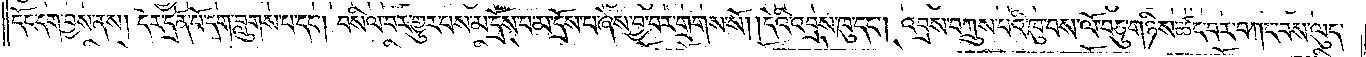དོང་དག་བྱས་ནས། དེར་དྲན་པོ་དག་བླུགས་པ་དང༌། བསིལ་བར་གྱུར་པས་མ་དྲོས་པ་མ་དྲོས་པ་ཞེས་བྱ་བར་གྲགས་སོ། །དེའི་འབྲས་ཁུ་དང༌། འབྲས་བཀྲུས་པའི་ཁུ་བ་ལོ་བཅུ་གཉིས་ཚང་བར་བཀང་བས་ལུད་
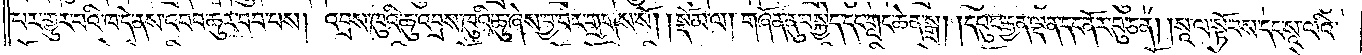པར་གྱུར་པའི་ཁ་དེ་ནས་འབབ་ཆུར་བབ་པས། འབྲས་ཁུའི་ཆུ་འབྲས་ཁུའི་ཆུ་ཞེས་བྱ་བར་གྲགས་སོ།    །སྡོམ་ལ། གཞོན་ནུ་བསྐྱེད་དང་གླང་ཆེན་སྒྲ། དཔུང་རྒྱལ་ལྡན་དང་ནོར་བུ་ཅན། སཱ་ལ་སྟོབས་དང་སཱ་ལའི་
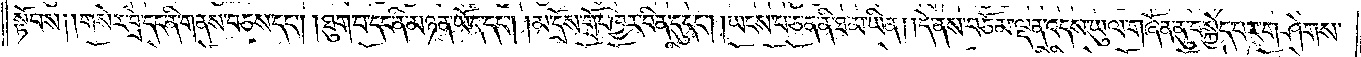སྟོབས། །གསེར་བྲེ་དང་ནི་གནས་བཅས་དང༌། །ཐུག་པ་དང་ནི་མཉན་ཡོད་དང༌། །མ་དྲོས་གྲོང་ཁྱེར་བིན་དུ་དང༌། །ཡངས་པ་ཅན་ནི་ཐ་མ་ཡིན། །དེ་ནས་བཅོམ་ལྡན་འདས་ཡུལ་གཞོན་ནུ་བསྐྱེད་པར་གཤེགས་
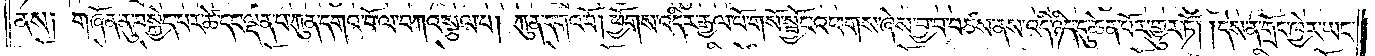ནས། གཞོན་ནུ་བསྐྱེད་པར་ཚེ་དང་ལྡན་པ་ཀུན་དགའ་བོ་ལ་བཀའ་སྩལ་པ། ཀུན་དགའ་བོ། །ཕྱོགས་འདིར་རྒྱལ་པོ་གསོ་སྦྱོང་འཕགས་ཞེས་བྱ་བ་བཙས་ནས་འདི་ཉིད་དུ་ཆེན་པོར་གྱུར་ཏོ། །དེས་ན་གྲོང་ཁྱེར་ཡང་
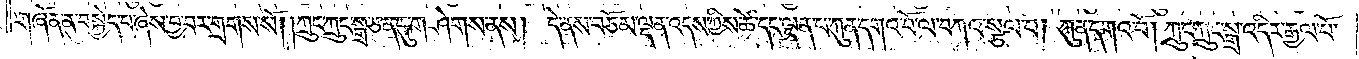གཞོན་ནུ་བསྐྱེད་པ་ཞེས་བྱ་བར་གྲགས་སོ། །ཀྲུང་ཀྲུང་སྒྲ་ཅན་དུ་གཤེགས་ནས། དེ་ནས་བཅོམ་ལྡན་འདས་ཀྱིས་ཚེ་དང་ལྡན་པ་ཀུན་དགའ་བོ་ལ་བཀའ་སྩལ་པ། ཀུན་དགའ་བོ། ཀྲུང་ཀྲུང་སྒྲ་འདིར་རྒྱལ་པོ་
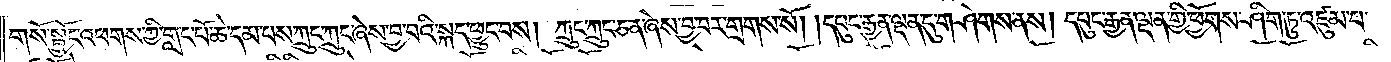གསོ་སྦྱོང་འཕགས་ཀྱི་གླང་པོ་ཆེ་དམ་པས་ཀྲུང་ཀྲུང་ཞེས་བྱ་བའི་སྐད་ཕྱུང་བས། ཀྲུང་ཀྲུང་ཅན་ཞེས་བྱ་བར་གྲགས་སོ། །དཔུང་རྒྱན་ལྡན་དུ་གཤེགས་ནས། དཔུང་རྒྱན་ལྡན་གྱི་ཕྱོགས་ཤིག་ཏུ་འཛུམ་པ་
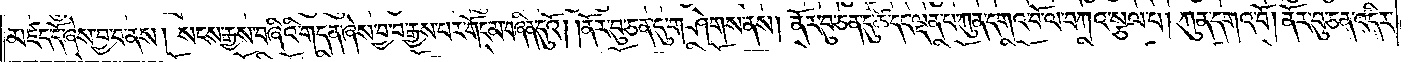མཛད་དོ་ཞེས་བྱ་བ་ནས། སངས་རྒྱས་བཞིའི་གདན་ཞེས་བྱ་བ་རྒྱས་པར་གོང་མ་བཞིན་དུའོ། །ནོར་བུ་ཅན་དུ་གཤེགས་ནས། ནོར་བུ་ཅན་དུ་ཚེ་དང་ལྡན་པ་ཀུན་དགའ་བོ་ལ་བཀའ་སྩལ་པ། ཀུན་དགའ་བོ། ནོར་བུ་ཅན་འདིར་
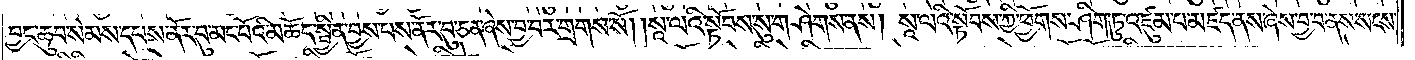བྱང་ཆུབ་སེམས་དཔས་ནོར་བུ་མང་པོའི་མཆོད་སྦྱིན་བྱས་པས་ནོར་བུ་ཅན་ཞེས་བྱ་བར་གྲགས་སོ། །སཱ་ལའི་སྟོབས་སུ་གཤེགས་ནས། སཱ་ལའི་སྟོབས་ཀྱི་ཕྱོགས་ཤིན་ཏུ་འཛུམ་པ་མཛད་ནས་ཞེས་བྱ་བ་ནས་སངས་
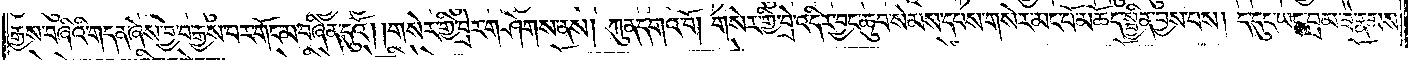རྒྱས་བཞིའི་གདན་ཞེས་བྱ་བ་རྒྱས་པར་གོང་མ་བཞིན་དུའོ། །གསེར་གྱི་བྲེར་གཤེགས་ནས། ཀུན་དགའ་བོ། གསེར་གྱི་བྲེ་འདིར་བྱང་ཆུབ་སེམས་དཔས་གསེར་མང་པོ་མཆོད་སྦྱིན་བྱས་པས། ད་དུང་ཡང་བྲམ་ཟེ་རྣམས་
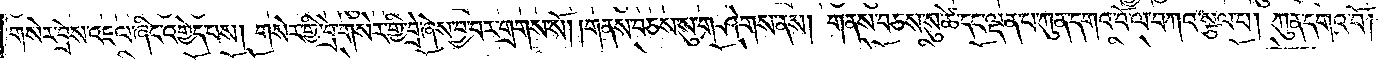གསེར་བྲེས་འཇལ་ཞིང་འགྱེད་པས། གསེར་གྱི་བྲེ་གསེར་གྱི་བྲེ་ཞེས་བྱ་བར་གྲགས་སོ། །གནས་བཅས་སུ་གཤེགས་ནས། གནས་བཅས་སུ་ཚེ་དང་ལྡན་པ་ཀུན་དགའ་བོ་ལ་བཀའ་སྩལ་པ། ཀུན་དགའ་བོ།
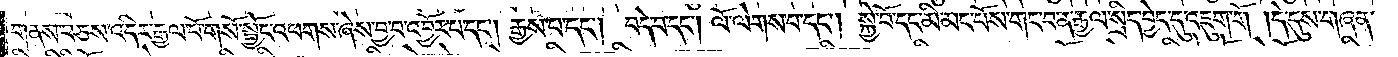གནས་བཅས་འདིར་རྒྱལ་པོ་གསོ་སྦྱོང་འཕགས་ཞེས་བྱ་བ་འབྱོར་པ་དང༌། རྒྱས་པ་དང༌། བདེ་བ་དང༌། ལོ་ལེགས་པ་དང༌། སྐྱེ་བོ་དང་མི་མང་པོས་གང་བ་ན་རྒྱལ་སྲིད་བྱེད་དུ་འཇུག་གོ། །དེ་དུས་གཞན་
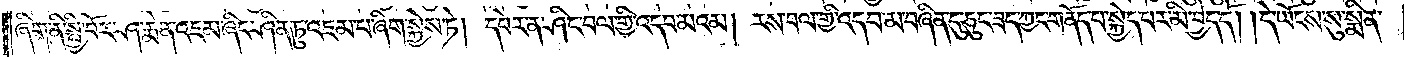ཞིག་ནི་སྤྱི་བོར་ཤ་རྨེན་འཇམ་ཞིང་ཤིན་ཏུ་འཇམ་པ་ཞིག་སྐྱེས་ཏེ། དཔེར་ན་ཤིང་བལ་གྱི་འདབ་མའམ། རས་བལ་གྱི་འདབ་མ་བཞིན་དུ་ཅུང་ཟད་ཀྱང་གནོད་པ་སྐྱེད་པར་མི་བྱེད་དོ། །དེ་ཡོངས་སུ་སྨིན་
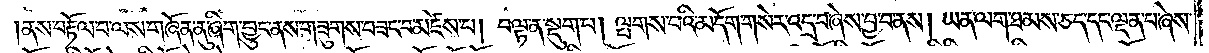།ནས་བརྟོལ་བ་ལས་གཞོན་ནུ་ཞིག་བྱུང་ནས་གཟུགས་བཟང་བ་མཛེས་པ། བལྟ་ན་སྡུག་པ། ལྤགས་པའི་མདོག་གསེར་འདྲ་བ་ཞེས་བྱ་བ་ནས། ཡན་ལག་ཐམས་ཅད་དང་ལྡན་པ་ཞེས་
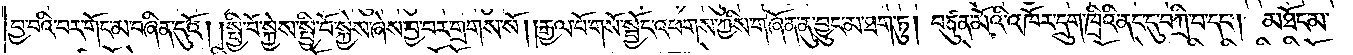བྱ་བའི་བར་གོང་མ་བཞིན་དུའོ། །སྤྱི་བོ་སྐྱེས་སྤྱི་བོ་སྐྱེས་ཞེས་བྱ་བར་གྲགས་སོ། །རྒྱལ་པོ་གསོ་སྦྱོང་འཕགས་ཀྱིས་གཞོན་ནུ་བྱུང་མ་ཐག་ཏུ། བཙུན་མོའི་འཁོར་དྲུག་ཁྲིའི་ནང་དུ་བཀྲི་བ་དང༌། མཐོང་མ་
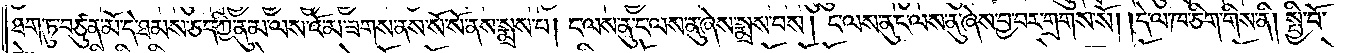ཐག་ཏུ་བཙུན་མོ་དེ་ཐམས་ཅད་ཀྱི་ནུ་མ་ལས་འོ་མ་ཟགས་ནས་སོ་སོ་ནས་སྨྲས་པ། ང་ལས་ནུ་ང་ལས་ནུ་ཞེས་སྨྲས་པས། ང་ལས་ནུ་ང་ལས་ནུ་ཞེས་བྱ་བར་གྲགས་སོ། །དེ་ལ་ཁ་ཅིག་གིས་ནི། སྤྱི་བོ་
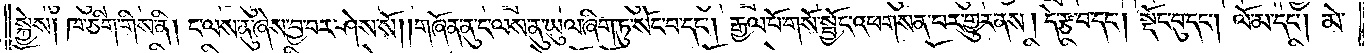སྐྱེས། ཁ་ཅིག་གིས་ནི། ང་ལས་ནུ་ཞེས་བྱ་བར་ཤེས་སོ། །གཞོན་ནུ་ང་ལས་ནུ་ཡུལ་ཞིག་ཏུ་སོང་བ་དང༌། རྒྱལ་པོ་གསོ་སྦྱོང་འཕགས་ན་བར་གྱུར་ནས། དེ་རྩ་བ་དང༌། སྡོང་བུ་དང༌། ལོ་མ་དང༌། མེ་
